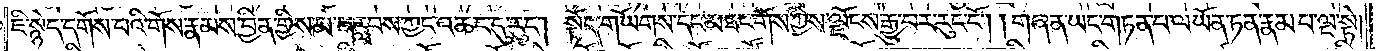ཇི་སྙེད་དགོས་པའི་གོས་རྣམས་བྱིན་གྱིས་མ་བརླབས་ཀྱང་འཆང་དུ་རུང༌། སྟོད་གཡོགས་དང་མཐང་གོས་ཀྱིས་ལྗོངས་རྒྱུ་བར་རུང་ངོ༌། །གཞན་ཡང་གཏན་པ་ལ་ཡོན་ཏན་རྣམ་པ་ལྔ་སྟེ།
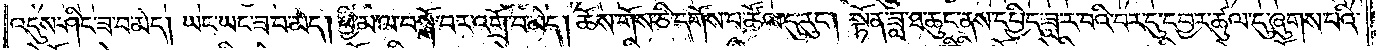འདུས་ཤིང་ཟ་བ་མེད། ཡང་ཡང་ཟ་བ་མེད། ཕྱི་མ་ལ་བསྒོ་བར་འགྲོ་བ་མེད། ཆོས་གོས་ཅི་དགོས་པ་ཚོལ་དུ་རུང༌། སྟོན་ཟླ་ཐ་ཆུང་ནས་དཔྱིད་ཟླ་ར་བའི་བར་དུ་དབྱར་ཚུལ་དུ་ཞུགས་པའི་
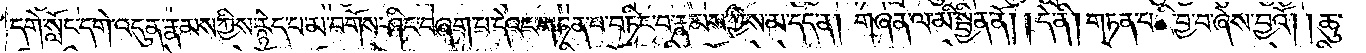དགེ་སློང་དགེ་འདུན་རྣམས་ཀྱིས་རྙེད་པ་མ་བགོས་ཤིང་བཞག་པ་དེའང་གཏན་པ་བཏིང་བ་རྣམས་ཀྱིས་མ་དད་ན། གཞན་ལ་མི་སྦྱིན་ནོ། །དེ་ནི། གཏན་པའི་བྱ་བ་ཞེས་བྱའོ། །ཆུ་
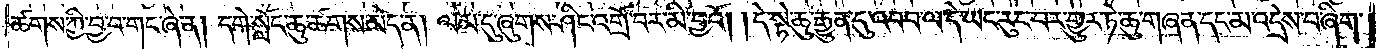ཚགས་ཀྱི་བྱ་བ་གང་ཞེ་ན། དགེ་སློང་ཆུ་ཚགས་མེད་ན། ལམ་དུ་ཞུགས་ཤིང་འགྲོ་བར་མི་བྱའོ། །དེ་སྟེ་ཆུ་རྒྱུན་དུ་འབབ་ལ་དེ་ཡང་རུང་བར་གྱུར་ཏེ་ཆུ་གཞན་དང་མ་འདྲེས་པ་ཞིག་
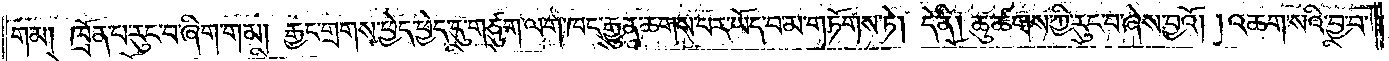གམ། ཁྲོན་པ་རུང་བ་ཞིག་གམ། རྒྱང་གྲགས་ཕྱེད་ཕྱེད་དུ་གཙུག་ལག་ཁང་རྒྱུན་ཆགས་པར་ཡོད་པ་མ་གཏོགས་ཏེ། དེ་ནི། ཆུ་ཚགས་ཀྱི་རུང་བ་ཞེས་བྱའོ། །འཆག་སའི་བྱ་བ་
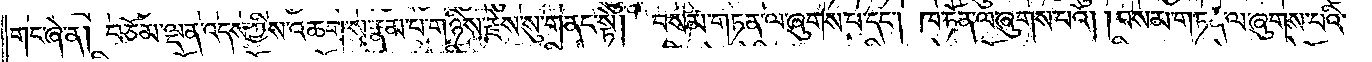གང་ཞེ་ན། བཅོམ་ལྡན་འདས་ཀྱིས་འཆག་ས་རྣམ་པ་གཉིས་རྗེས་སུ་གནང་སྟེ། བསམ་གཏན་ལ་ཞུགས་པ་དང༌། ཁ་ཏོན་ལ་ཞུགས་པའོ། །བསམ་གཏན་ལ་ཞུགས་པའི་
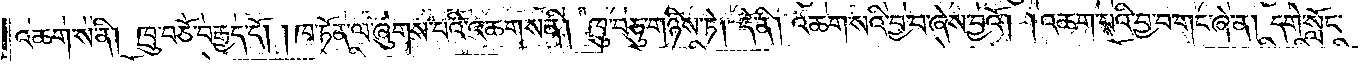འཆག་ས་ནི། ཁྲུ་བཅོ་བརྒྱད་དོ། །ཁ་ཏོན་ལ་ཞུགས་པའི་འཆག་ས་ནི། ཁྲུ་བཅུ་གཉིས་ཏེ། དེ་ནི། འཆག་སའི་བྱ་བ་ཞེས་བྱའོ། །འཆག་པའི་བྱ་བ་གང་ཞེ་ན། དགེ་སློང་
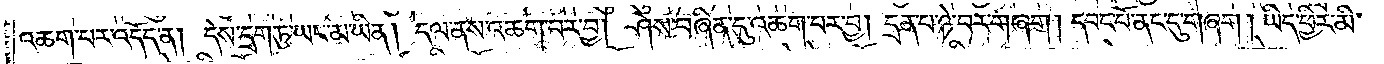འཆག་པར་འདོད་ན། དེས་དྲག་ཏུ་ཡང་མ་ཡིན། དལ་ནས་འཆག་པར་བྱ། ཤེས་བཞིན་དུ་འཆག་པར་བྱ། དྲན་པ་ཉེ་བར་གཞག །དབང་པོ་ནང་དུ་གཞག །ཡིད་ཕྱིར་མི་
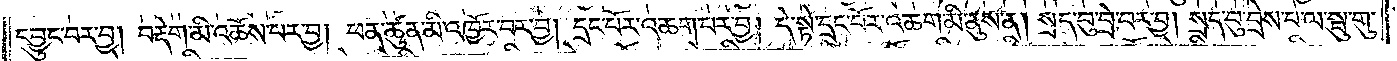དབྱུང་བར་བྱ། བརྡེག་མི་འཆོས་པར་བྱ། ཕན་ཚུན་མི་འཁྱོར་བར་བྱ། དྲང་པོར་འཆག་པར་བྱ། དེ་སྟེ་དྲང་པོར་འཆག་མི་ནུས་ན། སྲད་བུ་བྲེ་བར་བྱ། སྲད་བུ་བྲེས་པ་ལ་སྦུ་གུ་
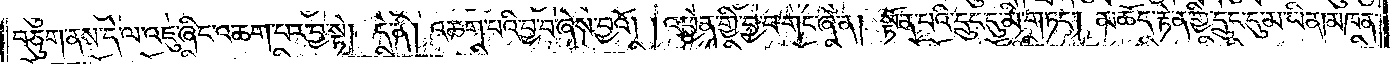བཅུག་ནས་དེ་ལ་འཇུ་ཞིང་འཆག་པར་བྱ་སྟེ། དེ་ནི། འཆག་པའི་བྱ་བ་ཞེས་བྱའོ། །འཕྱེན་གྱི་བྱ་བ་གང་ཞེ་ན། སྟོན་པའི་དྲུང་དུ་མི་གཏང༌། མཆོད་རྟེན་གྱི་དྲུང་དུ་མ་ཡིན། མཁན་
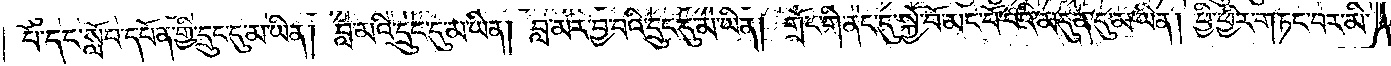པོ་དང་སློབ་དཔོན་གྱི་དྲུང་དུ་མ་ཡིན། བླ་མའི་དྲུང་དུ་མ་ཡིན། བླ་མར་བྱ་བའི་དྲུང་དུ་མ་ཡིན། གྲོང་གི་ནང་དུ་སྐྱེ་བོ་མང་པོ་བའི་མདུན་དུ་མ་ཡིན། ཕྱི་ཕྱིར་གཏང་བར་མི་
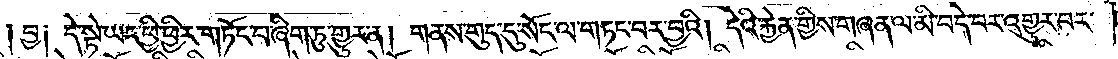བྱ། དེ་སྟེ་ཡང་ཕྱི་ཕྱིར་གཏོང་བ་ཞིག་ཏུ་གྱུར་ན། གནས་གུད་དུ་སོང་ལ་གཏང་བར་བྱའི། དེའི་རྐྱེན་གྱིས་གཞན་ལ་མི་བདེ་བར་འགྱུར་བར་
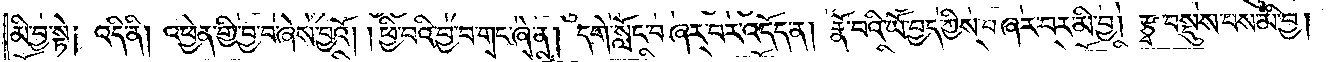མི་བྱ་སྟེ། འདི་ནི། འཕྱེན་གྱི་བྱ་བ་ཞེས་བྱའོ། །ཕྱི་བའི་བྱ་བ་གང་ཞེ་ན། དགེ་སློང་བཞར་བར་འདོད་ན། རྣོ་བའི་ཡོ་བྱད་ཀྱིས་བཞར་བར་མི་བྱ། རྩྭ་བསྡུས་པས་མི་བྱ།
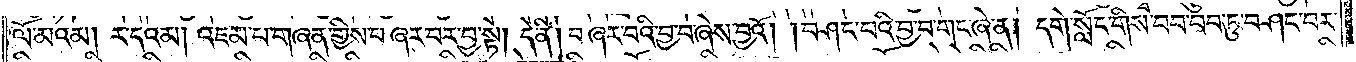ལོ་མའམ། ར་དའམ། འཇམ་པ་གཞན་གྱིས་བཞར་བར་བྱ་སྟེ། དེ་ནི། བཞར་བའི་བྱ་བ་ཞེས་བྱའོ། །བཤང་བའི་བྱ་བ་གང་ཞེ་ན། དགེ་སློང་གིས་བབ་བབ་ཏུ་བཤང་བར་
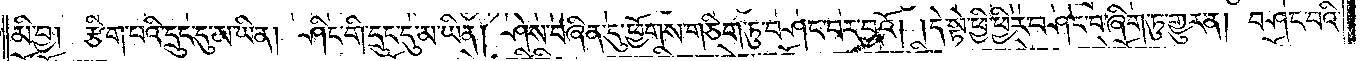མི་བྱ། རྩིག་པའི་དྲུང་དུ་མ་ཡིན། ཤིང་གི་དྲུང་དུ་མ་ཡིན། ཤེས་བཞིན་དུ་ཕྱོགས་གཅིག་ཏུ་བཤད་བར་བྱའོ། །དེ་སྟེ་ཕྱི་ཕྱིར་བཤང་བ་ཞིག་ཏུ་གྱུར་ན། བཤང་བའི་
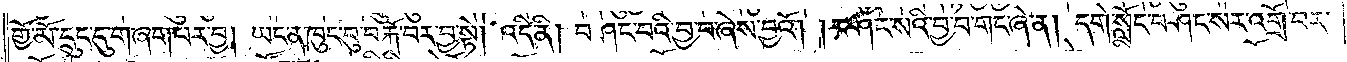གྱོ་མོ་དྲུང་དུ་གཞག་པར་བྱ། ཡང་ན་ཁུང་བུ་བརྐོ་བར་བྱ་སྟེ། འདི་ནི། བཤང་བའི་བྱ་བ་ཞེས་བྱའོ། །བཤང་སའི་བྱ་བ་གང་ཞེ་ན། དགེ་སློང་བཤང་སར་འགྲོ་བར་
